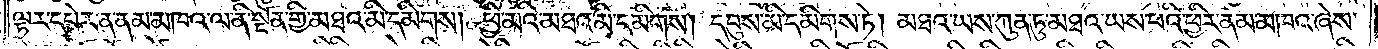ལྟར་དཔེར་ན་ནམ་མཁའ་ལ་ནི་སྔོན་གྱི་མཐའ་མི་དམིགས། ཕྱི་མའི་མཐའ་མི་དམིགས། དབུས་མི་དམིགས་ཏེ། མཐའ་ཡས་ཀུན་ཏུ་མཐའ་ཡས་པའི་ཕྱིར་ནམ་མཁའ་ཞེས་
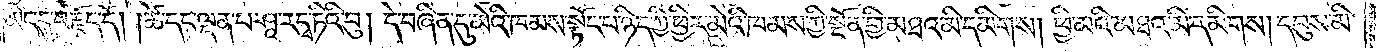མིང་དུ་བརྗོད་དོ། །ཚེ་དང་ལྡན་པ་ཤཱ་ར་དྭ་ཏིའི་བུ། དེ་བཞིན་དུ་མེའི་ཁམས་སྟོང་པ་ཉིད་ཀྱི་ཕྱིར་མེའི་ཁམས་ཀྱི་སྔོན་གྱི་མཐའ་མི་དམིགས། ཕྱི་མའི་མཐའ་མི་དམིགས། དབུས་མི་
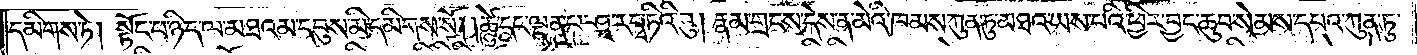དམིགས་ཏེ། སྟོང་པ་ཉིད་ལ་མཐའམ་དབུས་མི་དམིགས་སོ། །ཚེ་དང་ལྡན་པ་ཤཱ་ར་དྭ་ཏིའི་བུ། རྣམ་གྲངས་དེས་ན་མེའི་ཁམས་ཀུན་ཏུ་མཐའ་ཡས་པའི་ཕྱིར་བྱང་ཆུབ་སེམས་དཔའ་ཀུན་ཏུ་
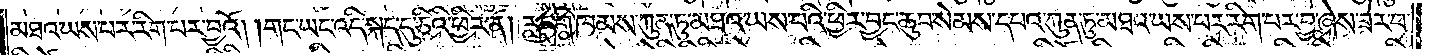མཐའ་ཡས་པར་རིག་པར་བྱའོ། །གང་ཡང་འདི་སྐད་དུ་ཅིའི་ཕྱིར་ན། རླུང་གི་ཁམས་ཀུན་ཏུ་མཐའ་ཡས་པའི་ཕྱིར་བྱང་ཆུབ་སེམས་དཔའ་ཀུན་ཏུ་མཐའ་ཡས་པར་རིག་པར་བྱ་ཞེས་ཟེར་བ་
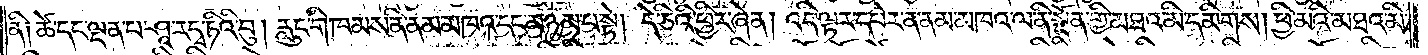ནི། ཚེ་དང་ལྡན་པ་ཤཱ་ར་དྭ་ཏིའི་བུ། རླུང་གི་ཁམས་ནི་ནམ་མཁའ་དང་མཉམ་པ་སྟེ། དེ་ཅིའི་ཕྱིར་ཞེ་ན། འདི་ལྟར་དཔེར་ན་ནམ་མཁའ་ལ་ནི་སྔོན་གྱི་མཐའ་མི་དམིགས། ཕྱི་མའི་མཐའ་མི་
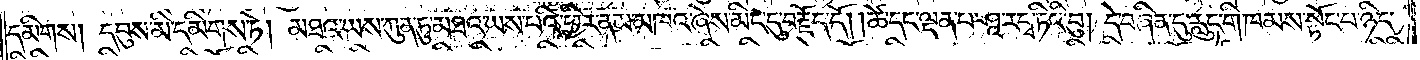དམིགས། དབུས་མི་དམིགས་ཏེ། མཐའ་ཡས་ཀུན་ཏུ་མཐའ་ཡས་པའི་ཕྱིར་ནམ་མཁའ་ཞེས་མིང་དུ་བརྗོད་དོ། །ཚེ་དང་ལྡན་པ་ཤཱ་ར་དྭ་ཏིའི་བུ། དེ་བཞིན་དུ་རླུང་གི་ཁམས་སྟོང་པ་ཉིད་
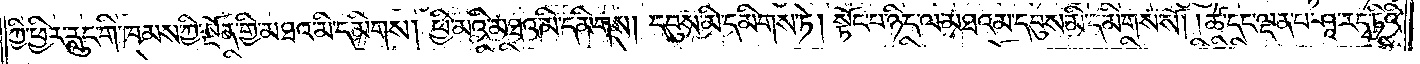ཀྱི་ཕྱིར་རླུང་གི་ཁམས་ཀྱི་སྔོན་གྱི་མཐའ་མི་དམིགས། ཕྱི་མའི་མཐའ་མི་དམིགས། དབུས་མི་དམིགས་ཏེ། སྟོང་པ་ཉིད་ལ་མཐའམ་དབུས་མི་དམིགས་སོ། །ཚེ་དང་ལྡན་པ་ཤཱ་ར་དྭ་ཏིའི་
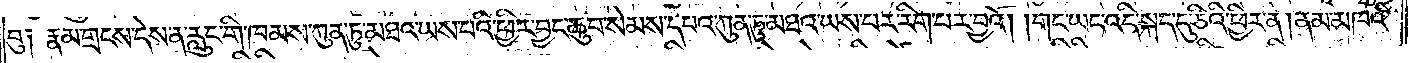བུ། རྣམ་གྲངས་དེས་ན་རླུང་གི་ཁམས་ཀུན་ཏུ་མཐའ་ཡས་པའི་ཕྱིར་བྱང་ཆུབ་སེམས་དཔའ་ཀུན་ཏུ་མཐའ་ཡས་པར་རིག་པར་བྱའོ། །གང་ཡང་འདི་སྐད་དུ་ཅིའི་ཕྱིར་ན། ནམ་མཁའི་
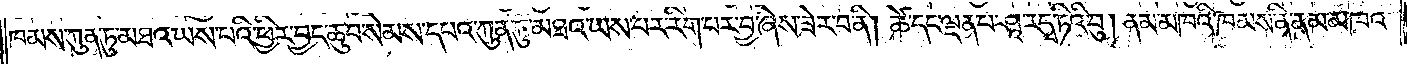ཁམས་ཀུན་ཏུ་མཐའ་ཡས་པའི་ཕྱིར་བྱང་ཆུབ་སེམས་དཔའ་ཀུན་ཏུ་མཐའ་ཡས་པར་རིག་པར་བྱ་ཞེས་ཟེར་བ་ནི། ཚེ་དང་ལྡན་པ་ཤཱ་ར་དྭ་ཏིའི་བུ། ནམ་མཁའི་ཁམས་ནི་ནམ་མཁའ་
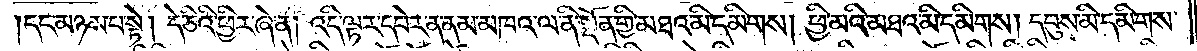དང་མཉམ་པ་སྟེ། དེ་ཅིའི་ཕྱིར་ཞེ་ན། འདི་ལྟར་དཔེར་ན་ནམ་མཁའ་ལ་ནི་སྔོན་གྱི་མཐའ་མི་དམིགས། ཕྱི་མའི་མཐའ་མི་དམིགས། དབུས་མི་དམིགས་
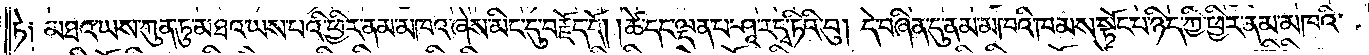ཏེ། མཐའ་ཡས་ཀུན་ཏུ་མཐའ་ཡས་པའི་ཕྱིར་ནམ་མཁའ་ཞེས་མིང་དུ་བརྗོད་དོ། །ཚེ་དང་ལྡན་པ་ཤཱ་ར་དྭ་ཏིའི་བུ། དེ་བཞིན་དུ་ནམ་མཁའི་ཁམས་སྟོང་པ་ཉིད་ཀྱི་ཕྱིར་ནམ་མཁའི་
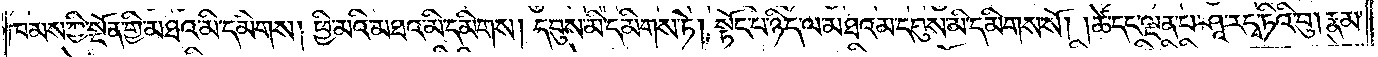ཁམས་ཀྱི་སྔོན་གྱི་མཐའ་མི་དམིགས། ཕྱི་མའི་མཐའ་མི་དམིགས། དབུས་མི་དམིགས་ཏེ། སྟོང་པ་ཉིད་ལ་མཐའམ་དབུས་མི་དམིགས་སོ། །ཚེ་དང་ལྡན་པ་ཤཱ་ར་དྭ་ཏིའི་བུ། རྣམ་
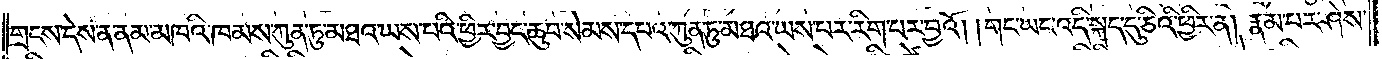གྲངས་དེས་ན་ནམ་མཁའི་ཁམས་ཀུན་ཏུ་མཐའ་ཡས་པའི་ཕྱིར་བྱང་ཆུབ་སེམས་དཔའ་ཀུན་ཏུ་མཐའ་ཡས་པར་རིག་པར་བྱའོ། །གང་ཡང་འདི་སྐད་དུ་ཅིའི་ཕྱིར་ན། རྣམ་པར་ཤེས་
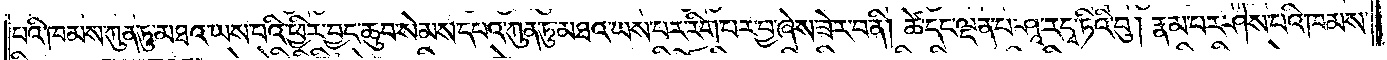པའི་ཁམས་ཀུན་ཏུ་མཐའ་ཡས་པའི་ཕྱིར་བྱང་ཆུབ་སེམས་དཔའ་ཀུན་ཏུ་མཐའ་ཡས་པར་རིག་པར་བྱ་ཞེས་ཟེར་བ་ནི། ཚེ་དང་ལྡན་པ་ཤཱ་ར་དྭ་ཏིའི་བུ། རྣམ་པར་ཤེས་པའི་ཁམས་
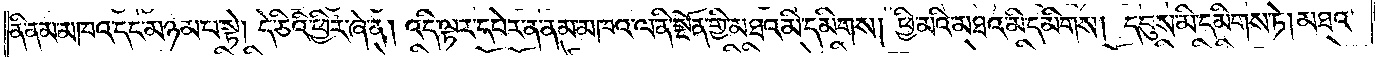ནི་ནམ་མཁའ་དང་མཉམ་པ་སྟེ། དེ་ཅིའི་ཕྱིར་ཞེ་ན། འདི་ལྟར་དཔེར་ན་ནམ་མཁའ་ལ་ནི་སྔོན་གྱི་མཐའ་མི་དམིགས། ཕྱི་མའི་མཐའ་མི་དམིགས། དབུས་མི་དམིགས་ཏེ། མཐའ་
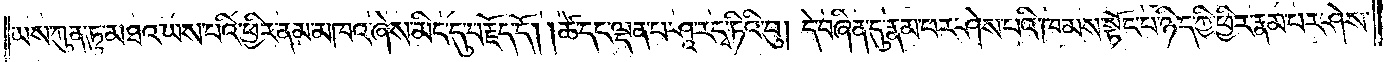ཡས་ཀུན་ཏུ་མཐའ་ཡས་པའི་ཕྱིར་ནམ་མཁའ་ཞེས་མིང་དུ་བརྗོད་དོ། །ཚེ་དང་ལྡན་པ་ཤཱ་ར་དྭ་ཏིའི་བུ། དེ་བཞིན་དུ་རྣམ་པར་ཤེས་པའི་ཁམས་སྟོང་པ་ཉིད་ཀྱི་ཕྱིར་རྣམ་པར་ཤེས་
